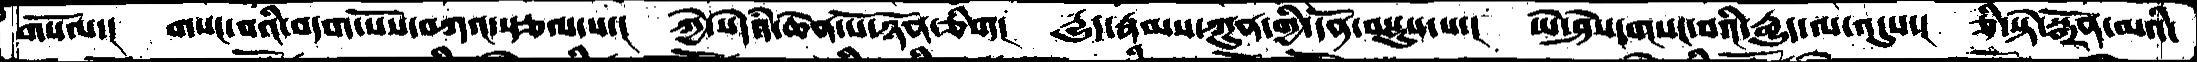གསོལ་།  གསང་བའི་བདག་པོས་བཀའ་སྩལ་པ་།  ཀྱེ་སེདཾའ་ཆེན་པོ་ཉོན་ཅིག།  དྱུད་རྣམས་ཀུན་གྱི་དོན་བསྡུས་པ་།  ཡེ་ཤེས་གསང་བའི་རྒྱུད་ལ་འདུས་། ཅི་སྟེ་སྒྲོན་མའི་
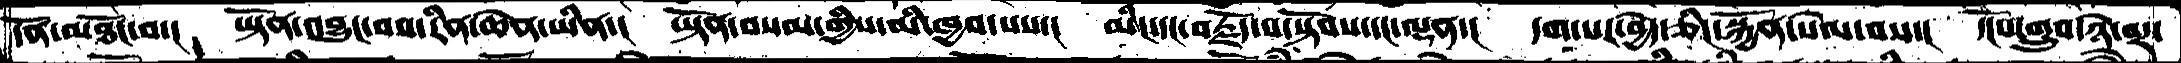དོན་མཐོང་བ་།  ཡྟོན་འབྱུང་བས་རིན་ཆེན་ཡིན་།  ཡྟོན་བསམ་གྱིས་མི་ཁྱབ་པས་།  མིང་དང་བརྗོད་པ་སྟོབས་དང་ལྡན་།  དག་པར་བྱེད་ཅིང་སྐྱོན་སེལ་བས་།  དངོས་གྲུབ་ཉེ་བར་
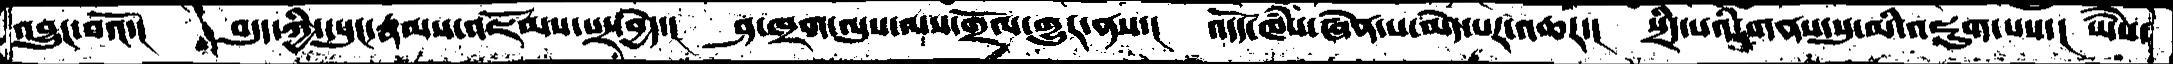འབྱུང་བའོ་།  བདུད་ཀྱི་དཔུང་རྣམས་འཇོམས་པར་བྱེད་།  ཤ་ཁྲག་ལུས་ལས་གྲོལ་གྱུར་ནས་།  འདོད་ཁཾས་ཞེན་པ་མེད་པར་འཆར་།  སྲིད་པའི་གནས་སུ་མི་འཇུག་པས་།  ཡཻས་
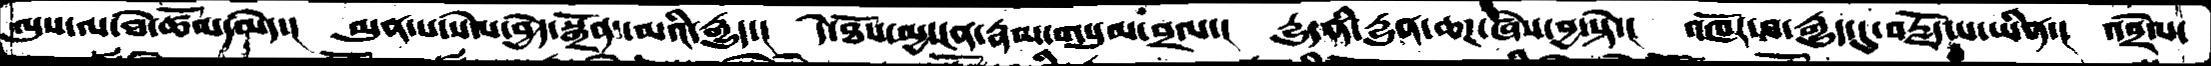ལུས་ལ་ཐེ་ཚོམ་མེད་།  མུན་པ་སེལ་བྱེད་སྒྲོན་མའི་རྒྱུད་།  དེ་ཐོས་མྱ་ངན་རྣམ་གསུམ་བྲལ་།  དྱུད་ནི་དྱུན་ཆཌ་ཞེས་བྱ་སྟེ་།  འཁོར་བ་རྒྱུད་དུ་བརྗོད་པ་ཡིན་།  འབྲེལ་
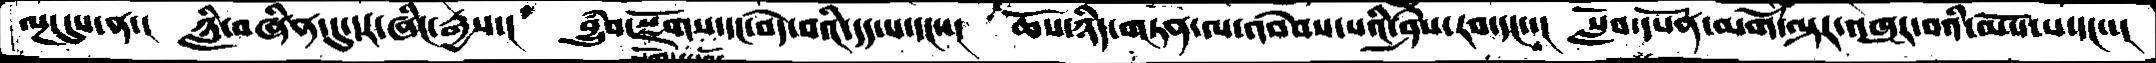ལྔ་དུས་ན་།  ཉླི་བཞིན་དུ་དར་ཞིང་རྒྱས་།  བྱུཾབ་སྫོགས་དང་བདེ་བའི་དད་པ་དང་་།  ཆོས་ཉིད་གཏན་ལ་འབེབས་པའི་ཤེས་རབ་དང་་།  སློབ་དཔོན་མགོ་ལྟར་འཁུར་བའི་མོས་པ་དང་་།
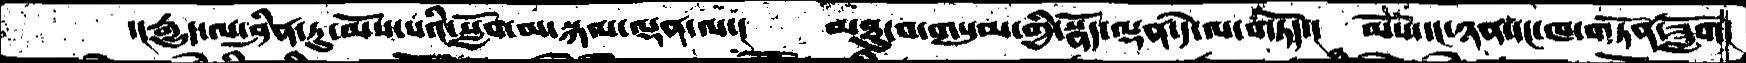་།རྒྱུད་ལ་ཤིན་ཏུ་མོས་པའི་སློབ་མ་སྐལ་ལྡན་ལ་།  མཐུ་བ་གསུམ་གྱི་སྣོད་ལྡན་དེ་ལ་གཏོད་།  མོས་དང་ཉན་དང་ཁ་གཏོན་ཟློག།
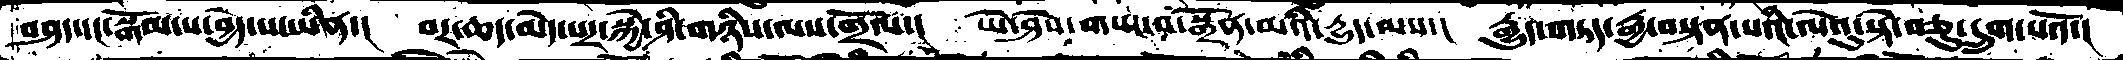བཤད་དང་སྒོམ་པ་བྱེད་པ་ཡིན་།  བར་ཆད་མེད་པར་སྐྱེ་ཤི་གཉིས་ལས་གྲོལ་།  ཡེ་ཤེས་གསང་བ་སྒྲོན་མའི་དྱུད་ལས་།  རྒྱུད་གཏད་རྒྱ་བསྟན་པའི་ལེའུ་སྟེ་བཅུ་དྲུག་པའོ་།
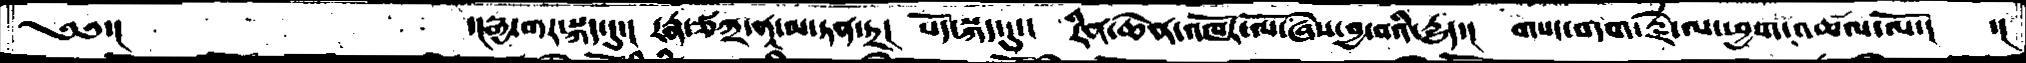༄༅་།        ་།རྒྱ་གར་སྐད་དུ་།  རཏྣ་ཙཀྲ་ནཱ་མ་ཏན་ཏྲ།  བོད་སྐད་དུ་།  རིན་ཆེན་འཁོར་ལོ་ཞེས་བྱ་བའི་དྱུད་།  གསང་བདག་རྗེ་ལ་ཕྱག་འཚལ་ལོ་།   ་།
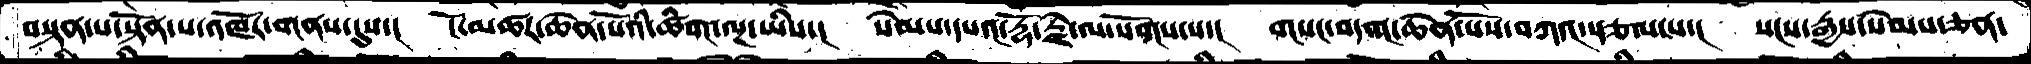བསྟན་པ་སྟོན་པ་འཁོར་གནས་དུས་།  ངོ་མཚར་ཆེན་པོའི་ཚིག་ལྔ་ཡིས་།  སེམས་དཔའ་རྡོ་རྗེ་ལ་སོགས་པ་།  གསང་བདག་ཆེན་པོས་བཀའ་སྩལ་པ་།  སངས་རྒྱས་སེམས་ཅན་
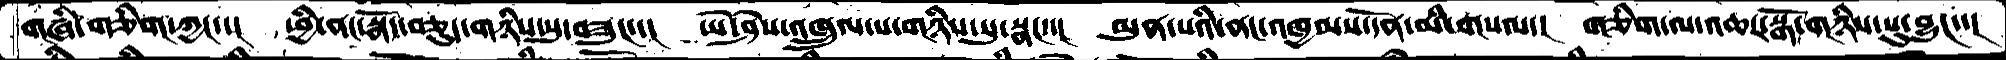གཞི་གཅིག་ཀྱང་་།  ཕྱི་ནང་སྣོད་བཅུད་གཉིས་སུ་བཟུང་་།  ཡེ་ཤེས་འཁྲུལ་པ་གཉིས་སུ་སྣང་་།  མུན་པའི་ནང་འཁྱམས་དོན་མི་གསལ་།  གཅིག་ལ་འཆར་སྒོ་གཉིས་སུ་བྱུང་་།
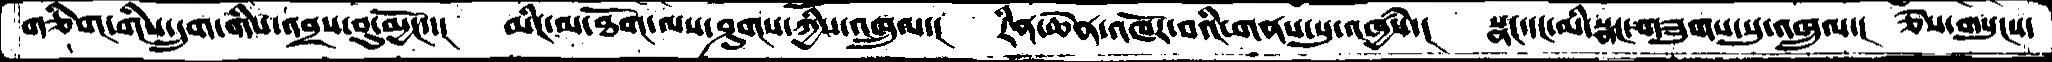གཅིག་གིས་དྲུག་གིས་འབྲས་བུ་མྱོང་་།  མིང་མ་ཐོག་ལས་ཤུགས་ཀྱིས་འཁྲུལ་།  རིན་ཆེན་འཁོར་བའི་གནས་སུ་འཁྱཾས་།  སྣང་དང་མི་སྣང་གཟུགས་སུ་འཁྲུལ་།  ཅེས་གསུངས་
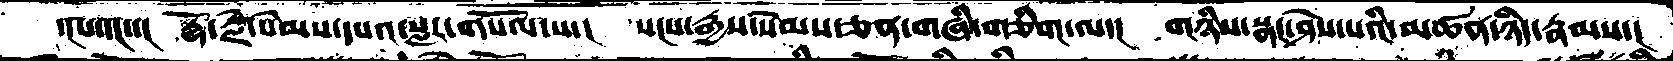་།པ་དང་་།  རྡོ་རྗེ་སེམས་དཔའ་སླར་གསོལ་པ་།  སངས་རྒྱས་སེམས་ཅན་གཞི་གཅིག་ལ་།  གཉིས་སྣང་ཤེས་པའི་མཚན་ཉིད་རྣམས་།
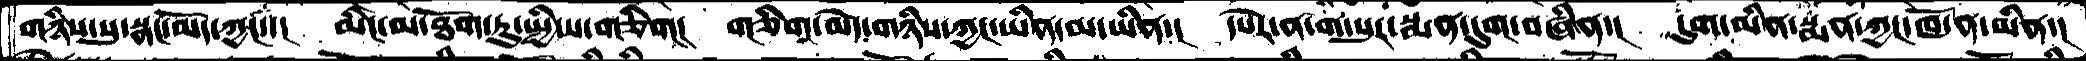གཉིས་སུ་སྣང་མོད་ཀྱང་་།  མིང་མ་ཐོག་ཏུ་སྤྱི་ས་གཅིག།  གཅིག་མེད་གཉིས་ཀྱང་ཡིན་མ་ཡིན་།  དཔེར་ན་ག་པུར་སྨན་དུག་བཞིན་།  དུག་མིན་སྨན་ཀྱང་ཁོ་ན་མིན་།
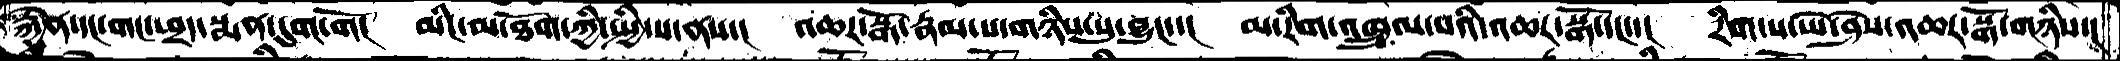རྐྱེན་དང་གང་ཕྲད་སྨན་དུག་གོ།  མིང་མ་ཐོག་ཀྱི་སྤྱི་ས་ནས་།  འཆར་སྒོ་རྣམ་པ་གཉིས་སུ་བྱུང་་།  མ་རིག་འཁྲུལ་པའི་འཆར་སྒོ་དང་་།  རིག་པ་ཡེ་ཤེས་འཆར་སྒོ་གཉིས་།
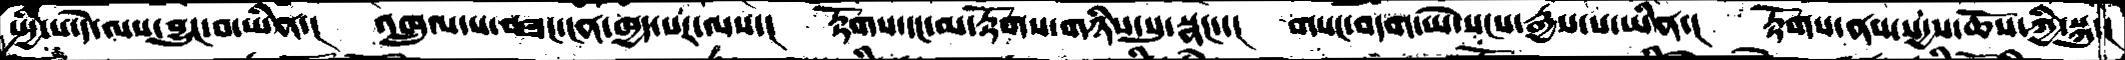སྤྱི་ས་དེ་ལས་བྱུང་བ་ཡིན་།  འཁྲུལ་ས་བཟང་ངན་ཁྱད་པར་ལས་།  རྟོག་དང་མ་རྟོགས་གཉིས་སུ་སྣང་་།  གསང་བདག་ཡེ་སངས་རྒྱས་པ་ཡིན་།  རྟོགས་ནས་སདྱས་ཆོས་ཀྱི་སྐུ་།
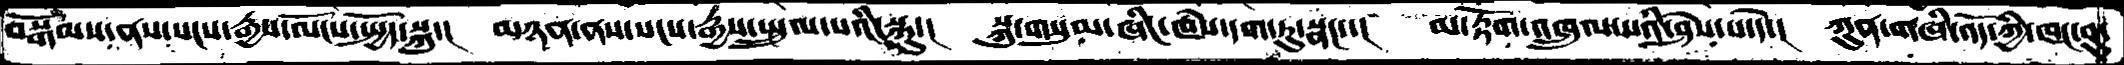བསྒོམས་ནས་སངས་རྒྱས་ལོངས་སྤྱོད་སྐུ་།  མཉན་ནས་སངས་རྒྱས་སྤྲུལ་པའི་སྐུ་།  སྐུ་གསུམ་ཞིང་ཁཾས་དག་ཏུ་སྣང་་།  མ་རྟོག་འཁྲུལ་པའི་ཤེས་པ་དེ་།  ཀུན་གཞི་འོད་ཀྱི་ཁང་བུ་
